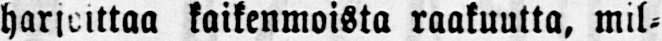harjoittaa kaikenmoista raakuutta, mil-
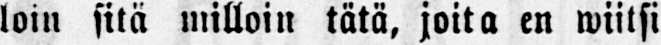loin sitä milloin tätä, joita en wiitsi
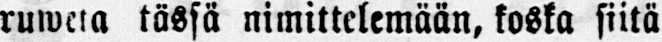ruweta tässä nimittelemään, koska siitä
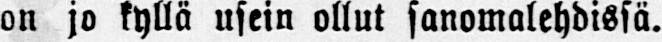on jo kyllä usein ollut sanomalehdissä.
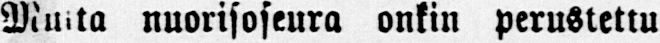Muita nuorisoseura onkin perustettu
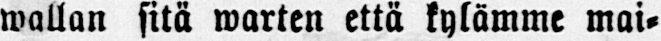wallan sitä warten että kylämme mai-
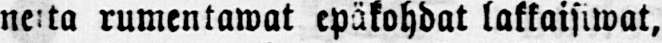neita rumentawat epäkohdat lakkaisiwat,
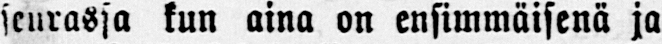seurassa kun aina on ensimmäisenä ja
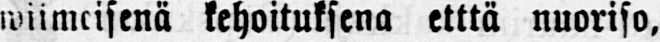wiimeisenä kehoituksena etttä nuoriso,
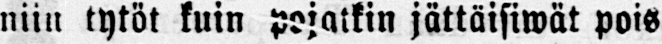niin tytöt kuin pojatkin jättäisiwät pois
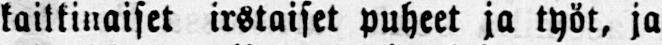kaikkinaiset irstaiset puheet ja työt, ja
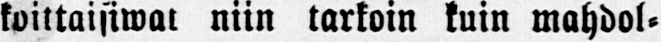koittaisiwat niin tarkoin kuin mahdol-
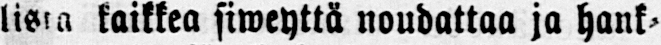lista kaikkea siweyttä noudattaa ja hank-
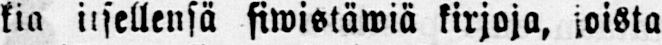kia itsellensä siwistäwiä kirjoja, joista
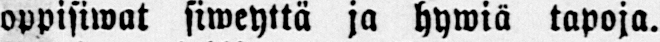oppisiwat siweyttä ja hywiö tapoja.
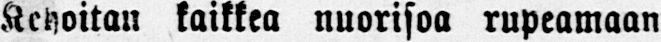Kehoitan kaikkea nuorisoa rupeamaan
